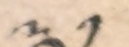༣༡
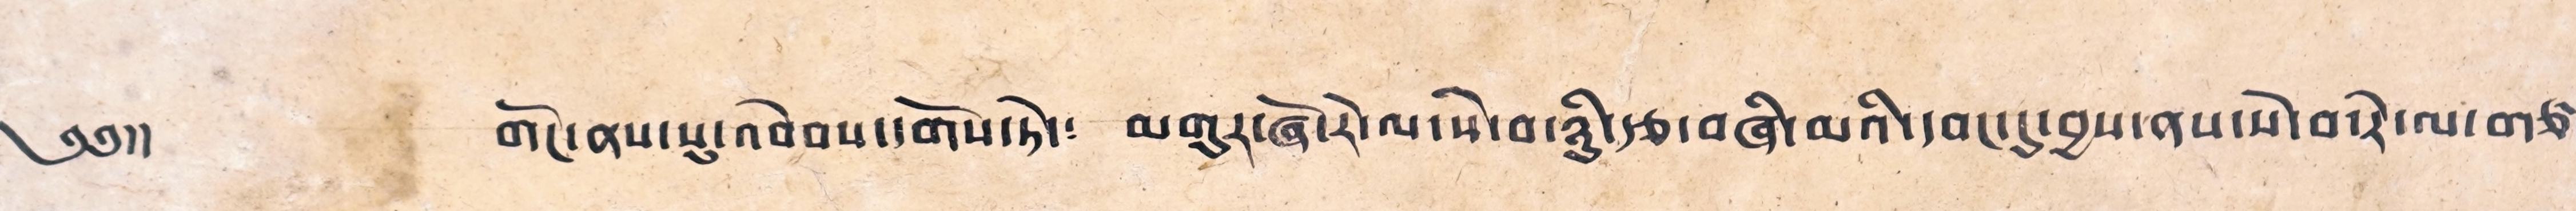༄༅།། གོང་ནས་སུ་འབེབས་དགོས་ཏེ་༴ མགུར་ཞོ་རེ་ལ་སེ་བ་ཉིུ་རྩ་བཞི་མའི་དབང་དུ་བྱས་ནས་སེ་བ་རེ་ལ་གཙང་
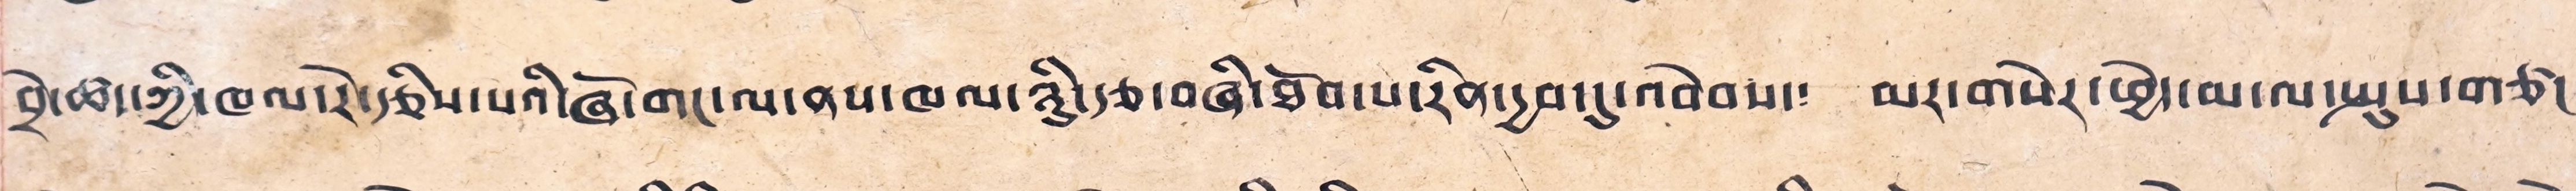བྲེ་ཚད་ཀྱི་ཁལ་རེ་རྩིས་པའི་ཞོ་གང་ལ་ནས་ཁལ་ཉིུ་རྩ་བཞི་ཐོབ་པ་རིན་དྱབ་དུ་འབེབས་༴ མར་གསེར་ཕྱེད་མ་ལ་སྤུས་གཙང་།
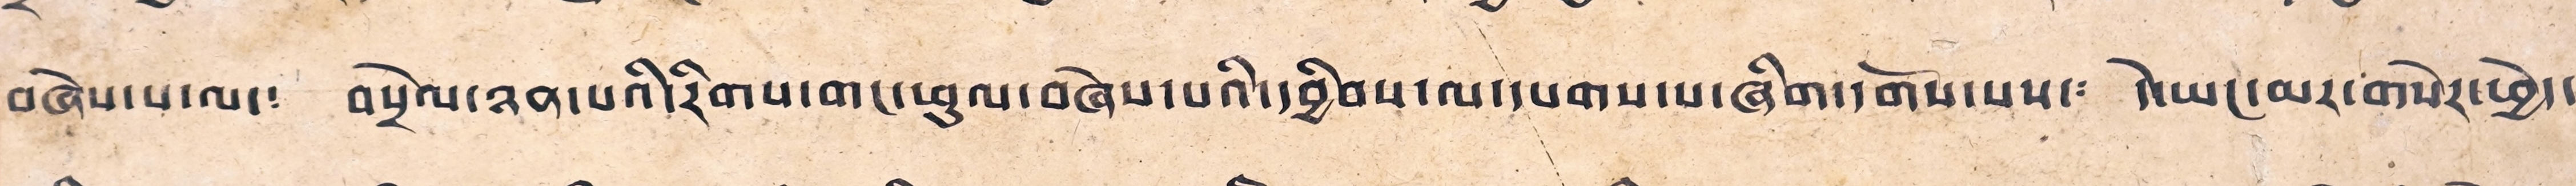བཞེས་པ་ལ་༴ བསྲེལ་ཉན་པའི་རིགས་གང་ཕུལ་བཞེས་པའི་དབྱིབས་ལ་དཔགས་པ་ཞིག་དགོས་པས་༴ དེ་ཡང་མར་གསེར་ཕྱེད་
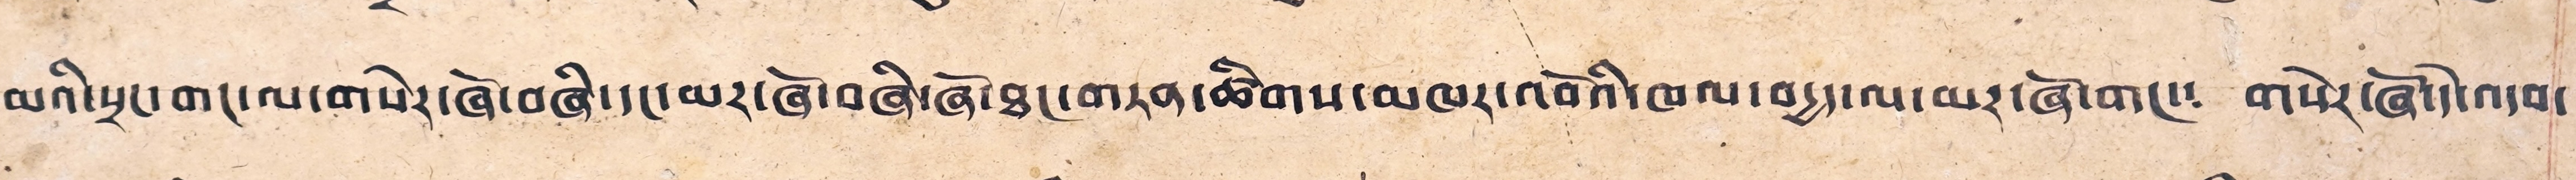མའི་སྲང་གང་ལ་གསེར་ཞོ་བཞི་དང་མར་ཞོ་བཞི་ཞོ་ཐང་གཏན་ཚིགས་མཁར་འབོའི་ཁལ་བདྱད་ལ་མར་ཞོ་གང་༴ གསེར་ཞོ་དེ་འདབ་
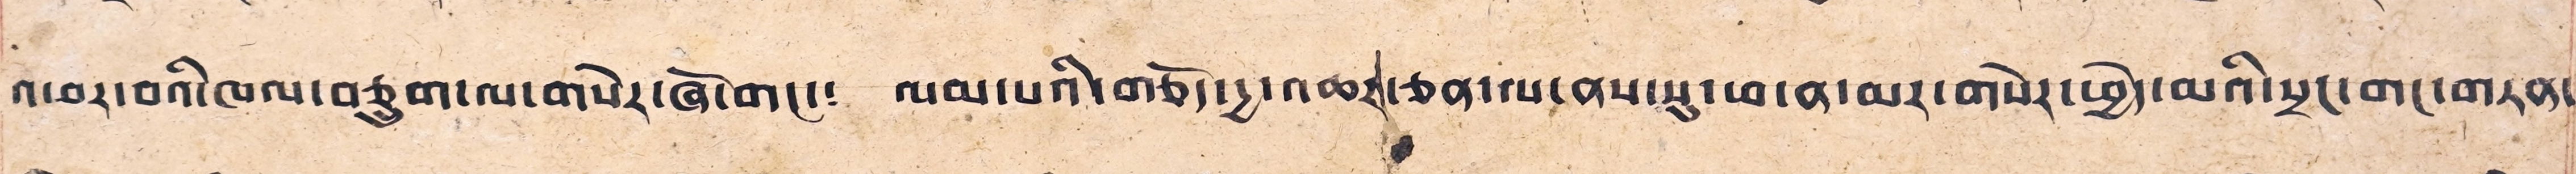འཕར་བའི་ཁལ་བཅུག་ལ་གསེར་ཞོ་གང་༴ ལམ་པའི་གཅོད་དྱ་འཆར་ཅན་ལ་ནས་སུ་ཕ་ན་མར་གསེར་ཕྱེད་མའི་སྲང་གང་གཏན་
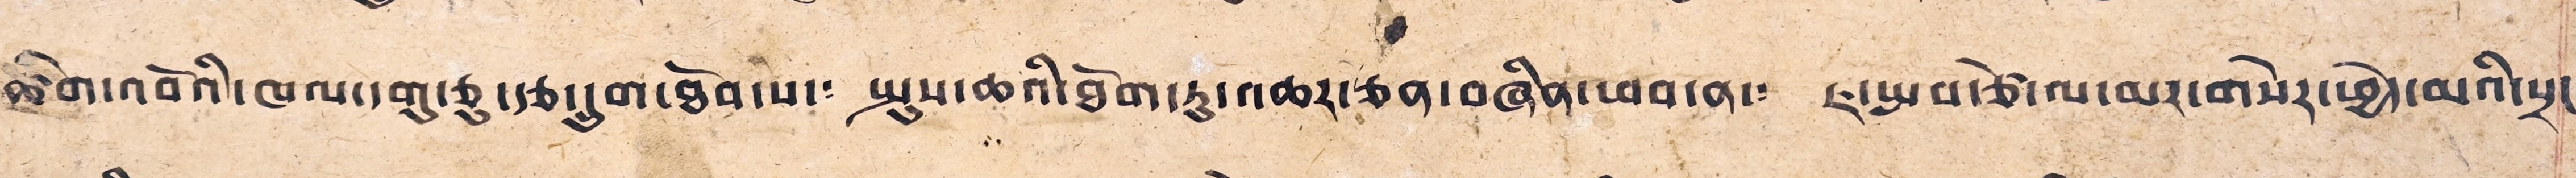ཚིག་འབོའི་ཁལ་དགུ་ཅུ་རྩ་དྲུག་ཐོབ་པ་༴ སྤུས་ཆའི་ཐོག་ཏུ་འཆར་ཅན་བཞིན་ཕབ་ན་༴ ཇ་སྤབ་རྩེ་ལ་མར་གསེར་ཕྱེད་མའི་སྲང༴
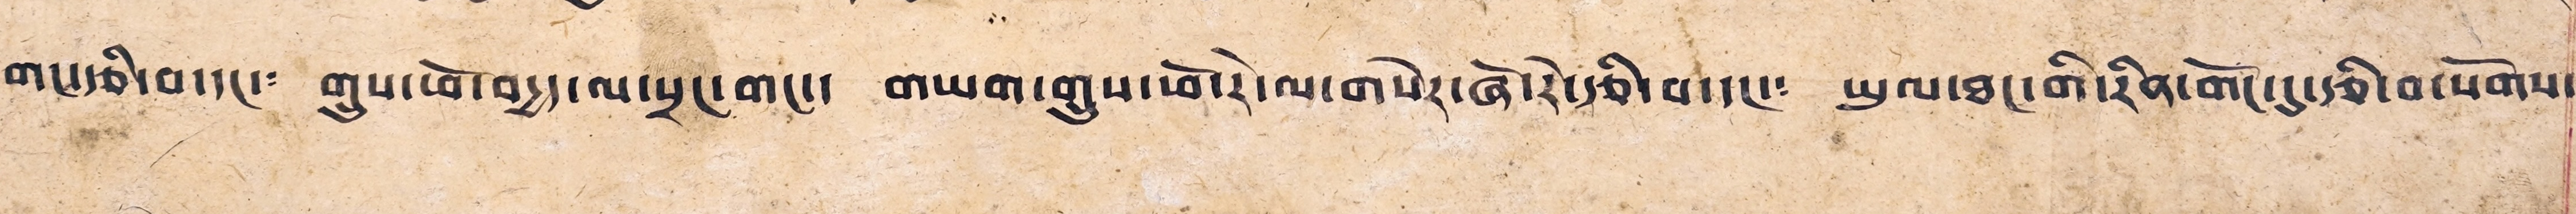གང་རྩི་བ་དང་༴ གྲུས་ཕོ་བདྱད་ལ་སྲིང་གང་༴ གཡག་གྲུས་ཕོ་རེ་ལ་གསེར་ཞོ་རེ་རྩི་བ་དང་༴ ཡུལ་ཐང་གི་རིན་གོང་དུ་རྩི་བ་སོགས་
